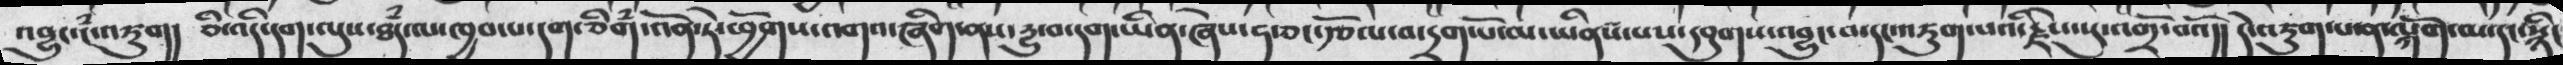འབྱུང་ངཾ་འཇུག།   ཅི་འདི་དག་ལུས་ཐཾདལ་ཁྱབ་པ་དག་ཅིགཾ་འོན་ཏེ་ཕྱོགས་འགའ་ཞིག་ནས་དྱུ་བ་དག་ཡིན་ཞེས་ཧ་ཅང་རྩོལ་བ་དྲག་པོ་མ་ཡིན་པས་དབུག་འབྱུང་བ་དང་འཇུག་པའི་རྗེས་སུ་འགྲོ་བའོ།།   དེས་འཇུག་པ་ན་ལྐོག་མ་དང་སྙིང
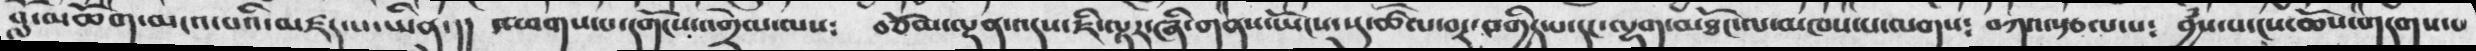བློ་མཆོག་མངའ་པའི་མཛད་པ་ཡིན་།།  འཕགས་པ་དགོངས་འགྲེལ་ལས༴  བཅོམ་ལྡན་འདས་ཇི་ལྟར་ཞི་གནས་ཡོངས་སུ་ཚོལ་བར་བགྱིད་པ་དང་ལྷག་མཐོང་ལ་མཁས་པ་ལགས༴  བཀའ་སྩལ་པ༴  བྱཾས་པ་ངས་ཆོས་གདགས་པ
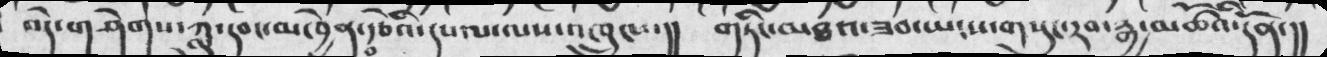བདེ་གཤེགས་ཀླུ་དབང་མཁྱེན་བརྩེའི་དཔལ་ལས་འཁྲུངས་།།  གཏིང་མཐའ་ཟབ་ཡངས་གསུང་རབ་རྒྱ་མཚོའི་དོན་།།
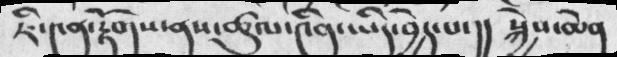ཇི་༤ན་རྟོགས་ནས་ཚུལ་༤ིན་ཡིད་བྱེད་པ་།།  སྐྱེས་ཆེན
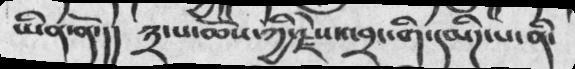ཡིན་ནོ་།།  ༣་པ་ཆོས་ཀྱི་རྗེས་འབྲང་གི་དམིཌ་པ་ནི་
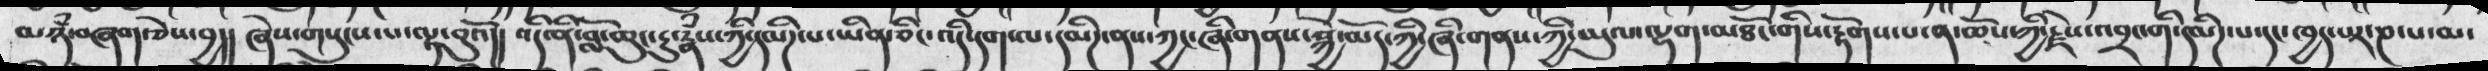མཉཾ་བཞག་ཅེས་བྱ།། ཞེས་གསུངས་པ་ལྟ་བུའོ།།  འདི་ནི་བློ་ཆུང་ངུ་རྣཾས་ཀྱི་དམིཌ་པ་ཡིན་ཅིང་འདི་དག་ལ་དམིཌ་ནས་ཀྱང་ཞི་གནས་ཀྱི་ཡུལ་ལྷག་མཐོང་གིས་རྟོགས་པ་ན་ཆོས་ཀྱི་རྗེས་འབྲང་གི་དམིཌ་པ་དང་ཁྱད་པར་ཎ་པ་མ་
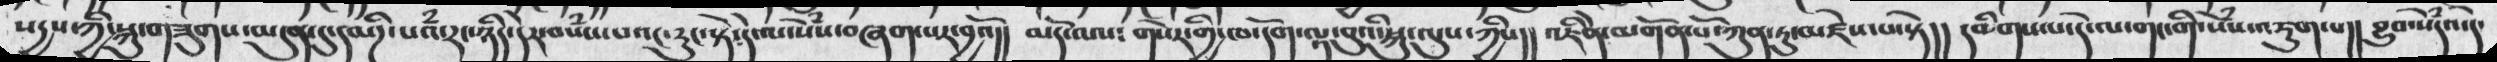སདྱས་ཀྱི་སྐུ་གཟུགས་མདུན་དུ་དམིཌ་པའཾ་རང་ཉིད་དེར་བསཾ་པའང་རུང་སྟེ་དེ་ལ་སེཾས་བཞག་པར་བྱའོ།།  མདོ་ལས་  གསེར་གྱི་ཁ་དོག་ལྟ་བུའི་སྐུ་ལུས་ཀྱིས།།  འཇིེན་མགོན་པོ་ཀུན་ཏུ་མཛེས་༷པ་སྟེ།།   དམིགས་པ་དེ་ལ་གང་གི་སེཾས་འཇུག་པ།།  བྱུབ་སེཾདའ་དེ་
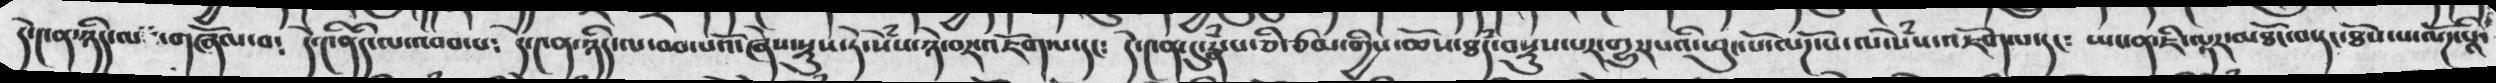དེ་༤ན་ཉིད་ལ་གཞོལ་བ༴  དེ་༤ིནིད་ལ་འབབ་པ༴  དེ་༤ན་ཉིད་ལ་བབ་པའོ་ཞེས་སྟུས་ཏེ་སེཾས་ཉེ་བར་འཇོག་པ་དང༴  དེ་༤ན་དུ་རྣཾ་པ་ཅི་ཙམ་གྱིས་ཆོས་ཐཾད་བསྟུས་པར་གྱུར་པའི་ཕུང་པོ་ལོཌ་པ་ལ་སེཾས་འཇོག་པ་དང༴  ཡང་ན་ཇི་ལྟར་མཐོང་བ་དང་ཐོས་པ་ལོཌ་པའི་
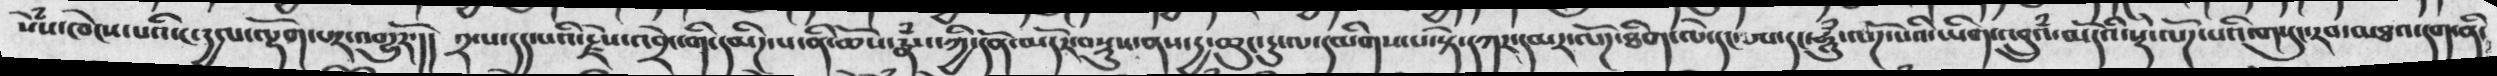སེཾས་ཁེངས་པའི་ང་དྱལ་ལྡོག་པར་འགྱུརོ་།། ༢་པ་དད་པའི་རྗེས་འབྲེང་གི་དམིཌ་པ་ནི་ཆོས་རྣཾས་ཀྱི་དོན་མདོར་བསྡུས་ནས་དྱ་ཆུང་ངུ་ལ་དམིགས་པ་སྟེ་དཀར་དམར་ལོཌ་ཐིག་ལེ་དང་ཨ་དང་ཧཱུཾ་ལོཌ་པའི་ཡིག་འབྲུའཾ་མདོའི་སྡེ་ལོཌ་པའི་གསུང་རབ་མཐའ་དག་ནི་
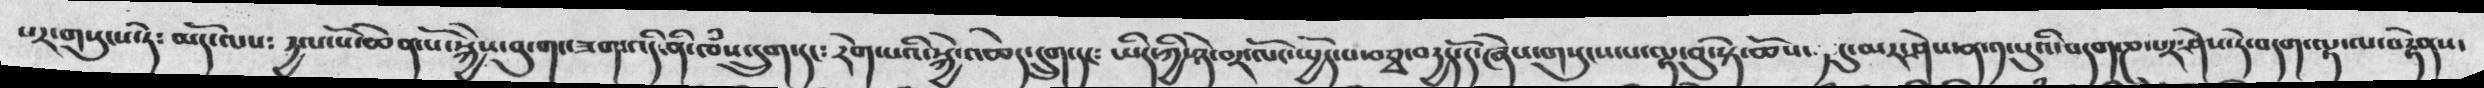པར་གསུངས་ཏེ༴  མདོ་ལས༴  དྱལ་པོ་ཆེན་པོ་སྐྱེས་བུ་གང་ཟག་འདི་ནི་ཁཾས་དྲུག་དང༴ རེག་པའི་སྐྱེ་འཆེད་དྲུག་དང༴  ཡིད་ཀྱི་ཉེ་བར་ལོང་སྤྱོད་པ་བཅྭ་བརྱད་དོ་ཞེས་གསུངས་པ་ལྟ་བུ་སྟེ་ཆོས་༡་དུ་མར་ཤེས་ན་༡་པུའི་བདག་ཎ་པར་ཤེས་དེ་བདག་ལྟ་ལ་བརྟེནས་
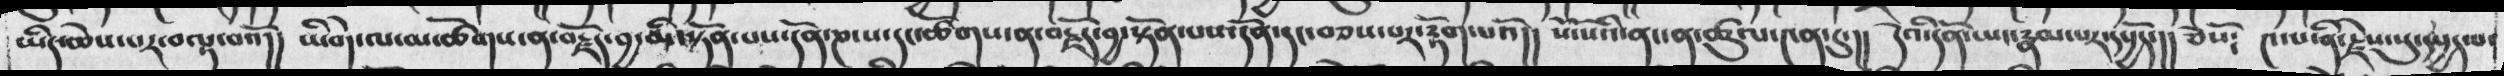ཡིད་ཆེས་པར་བལྟ་བའོ།། ཡིགེ་ལ་མ་ཚོགས་ན་བརྗོད་བྱ་མི་སྟོན་པས་དོན་ཎ་པ་དང་ཚོགས་ན་བརྗོད་བྱ་སྟོན་པས་དོན་དང་བཅས་པར་རྟོག་པའོ།། སོ་སོའི་ནང་ན་ཚུལ་༤ན་དུ་།། དེའི་དོན་ཡང་རྣམ་པར་དཔྱོད་།། ཅེསོ༴ ༤་པ་ནི་རྗེས་སུ་དཔྱད་པ་
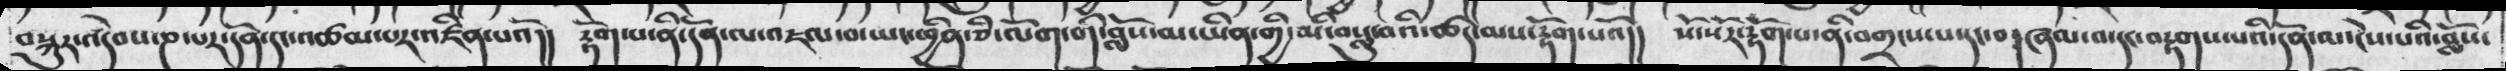བསྐུར་འདེབས་ཎ་པར་དོན་དང་འཚམ་པར་འཛིན་པའོ།།  རྟོག་པ་ནི་དོན་ལ་འཇལ་བ་ཡང་ཕྱིན་ཅི་ལོག་གི་བློས་མ་ཡིན་གྱི་མི་བསླུ་བའི་ཚད་མས་རྟོག་པའོ།།   སོ་སོར་རྟོག་པ་ནི་བགྲངས་པ་དང་གཞལ་བ་དང་བརྟགས་པའི་དོན་ལ་ངེས་པའི་བློས་
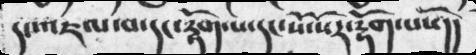དང་འཇལ་པ་དང་རྟོག་པ་དང་སོ་སོར་རྟོག་པསོ།།
